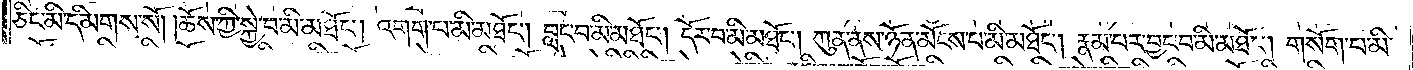ཅིང་མི་དམིགས་སོ། །ཆོས་ཀྱི་སྐྱེ་བ་མི་མཐོང༌། འགག་པ་མི་མཐོང༌། བླང་བ་མི་མཐོང༌། དོར་བ་མི་མཐོང༌། ཀུན་ནས་ཉོན་མོངས་པ་མི་མཐོང༌། རྣམ་པར་བྱང་བ་མི་མཐོང༌། གསོག་པ་མི་
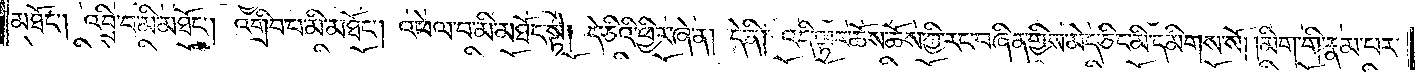མཐོང༌། འབྲི་བ་མི་མཐོང༌། འགྲིབ་པ་མི་མཐོང༌། འཕེལ་བ་མི་མཐོང་སྟེ། དེ་ཅིའི་ཕྱིར་ཞེ་ན། དེ་ནི། འདི་ལྟར་ཆོས་ཆོས་ཀྱི་རང་བཞིན་གྱིས་མེད་ཅིང་མི་དམིགས་སོ། །མིག་གི་རྣམ་པར་
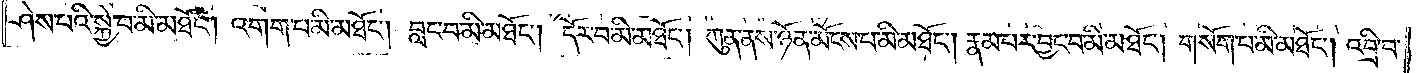ཤེས་པའི་སྐྱེ་བ་མི་མཐོང༌། འགག་པ་མི་མཐོང༌། བླང་བ་མི་མཐོང༌། དོར་བ་མི་མཐོང༌། ཀུན་ནས་ཉོན་མོངས་པ་མི་མཐོང༌། རྣམ་པར་བྱང་བ་མི་མཐོང༌། གསོག་པ་མི་མཐོང༌། འབྲི་བ་
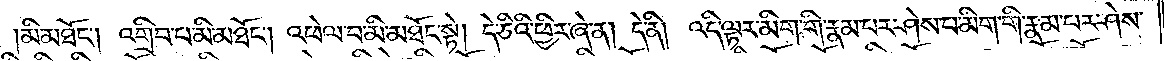མི་མཐོང༌། འགྲིབ་པ་མི་མཐོང༌། འཕེལ་བ་མི་མཐོང་སྟེ། དེ་ཅིའི་ཕྱིར་ཞེ་ན། དེ་ནི། འདི་ལྟར་མིག་གི་རྣམ་པར་ཤེས་པ་མིག་གི་རྣམ་པར་ཤེས་
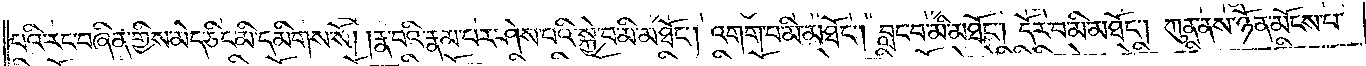པའི་རང་བཞིན་གྱིས་མེད་ཅིང་མི་དམིགས་སོ། །རྣ་བའི་རྣམ་པར་ཤེས་པའི་སྐྱེ་བ་མི་མཐོང༌། འགག་པ་མི་མཐོང༌། བླང་བ་མི་མཐོང༌། དོར་བ་མི་མཐོང༌། ཀུན་ནས་ཉོན་མོངས་པ་
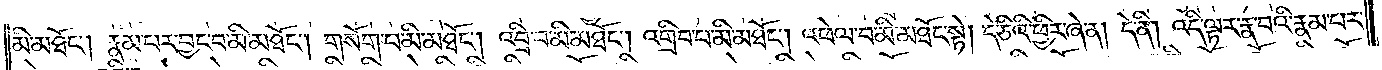མི་མཐོང༌། རྣམ་པར་བྱང་བ་མི་མཐོང༌། གསོག་པ་མི་མཐོང༌། འབྲི་བ་མི་མཐོང༌། འགྲིབ་པ་མི་མཐོང༌། འཕེལ་བ་མི་མཐོང་སྟེ། དེ་ཅིའི་ཕྱིར་ཞེ་ན། དེ་ནི། འདི་ལྟར་རྣ་བའི་རྣམ་པར་
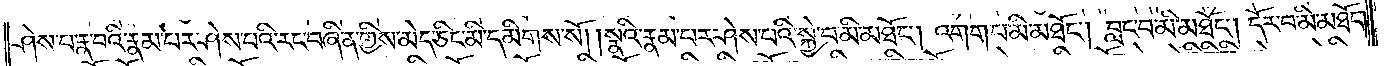ཤེས་པ་རྣ་བའི་རྣམ་པར་ཤེས་པའི་རང་བཞིན་གྱིས་མེད་ཅིང་མི་དམིགས་སོ། །སྣའི་རྣམ་པར་ཤེས་པའི་སྐྱེ་བ་མི་མཐོང༌། འགག་པ་མི་མཐོང༌། བླང་བ་མི་མཐོང༌། དོར་བ་མི་མཐོང༌།
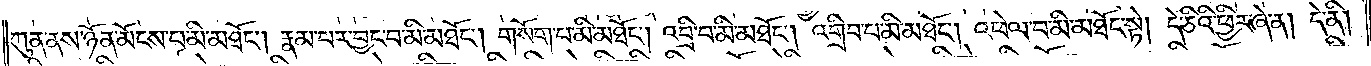ཀུན་ནས་ཉོན་མོངས་པ་མི་མཐོང༌། རྣམ་པར་བྱང་བ་མི་མཐོང༌། གསོག་པ་མི་མཐོང༌། འབྲི་བ་མི་མཐོང༌། འགྲིབ་པ་མི་མཐོང༌། འཕེལ་བ་མི་མཐོང་སྟེ། དེ་ཅིའི་ཕྱིར་ཞེ་ན། དེ་ནི།
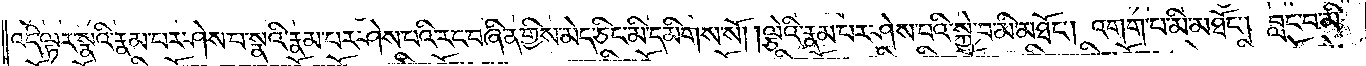འདི་ལྟར་སྣའི་རྣམ་པར་ཤེས་པ་སྣའི་རྣམ་པར་ཤེས་པའི་རང་བཞིན་གྱིས་མེད་ཅིང་མི་དམིགས་སོ། །ལྕེའི་རྣམ་པར་ཤེས་པའི་སྐྱེ་བ་མི་མཐོང༌། འགག་པ་མི་མཐོང༌། བླང་བ་མི་
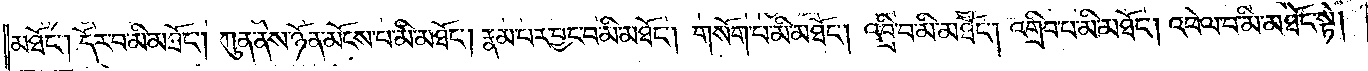མཐོང༌། དོར་བ་མི་མཐོང༌། ཀུན་ནས་ཉོན་མོངས་པ་མི་མཐོང༌། རྣམ་པར་བྱང་བ་མི་མཐོང༌། གསོག་པ་མི་མཐོང༌། འབྲི་བ་མི་མཐོང༌། འགྲིབ་པ་མི་མཐོང༌། འཕེལ་བ་མི་མཐོང་སྟེ།
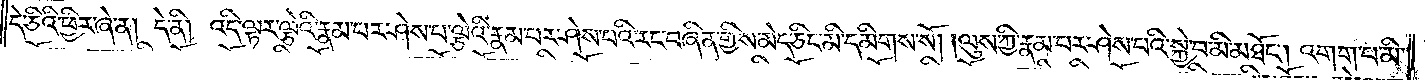དེ་ཅིའི་ཕྱིར་ཞེ་ན། དེ་ནི། འདི་ལྟར་ལྕེའི་རྣམ་པར་ཤེས་པ་ལྕེའི་རྣམ་པར་ཤེས་པའི་རང་བཞིན་གྱིས་མེད་ཅིང་མི་དམིགས་སོ། །ལུས་ཀྱི་རྣམ་པར་ཤེས་པའི་སྐྱེ་བ་མི་མཐོང༌། འགག་པ་མི་
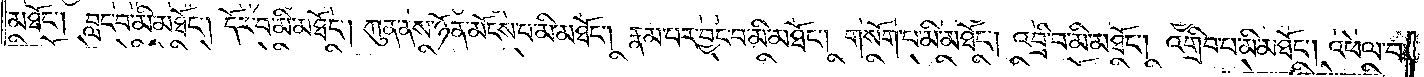མཐོང༌། བླང་བ་མི་མཐོང༌། དོར་བ་མི་མཐོང༌། ཀུན་ནས་ཉོན་མོངས་པ་མི་མཐོང༌། རྣམ་པར་བྱང་བ་མི་མཐོང༌། གསོག་པ་མི་མཐོང༌། འབྲི་བ་མི་མཐོང༌། འགྲིབ་པ་མི་མཐོང༌། འཕེལ་བ་
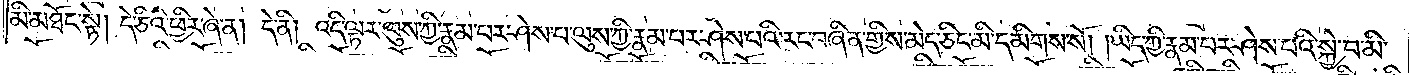མི་མཐོང་སྟེ། དེ་ཅིའི་ཕྱིར་ཞེ་ན། དེ་ནི། འདི་ལྟར་ལུས་ཀྱི་རྣམ་པར་ཤེས་པ་ལུས་ཀྱི་རྣམ་པར་ཤེས་པའི་རང་བཞིན་གྱིས་མེད་ཅིང་མི་དམིགས་སོ། །ཡིད་ཀྱི་རྣམ་པར་ཤེས་པའི་སྐྱེ་བ་མི་
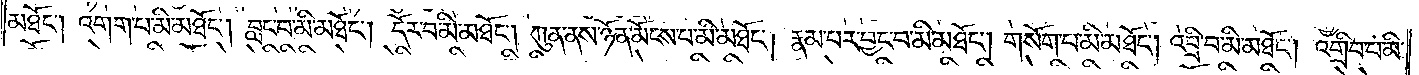མཐོང༌། འགག་པ་མི་མཐོང༌། བླང་བ་མི་མཐོང༌། དོར་བ་མི་མཐོང༌། ཀུན་ནས་ཉོན་མོངས་པ་མི་མཐོང༌། རྣམ་པར་བྱང་བ་མི་མཐོང༌། གསོག་པ་མི་མཐོང༌། འབྲི་བ་མི་མཐོང༌། འགྲིབ་པ་མི་
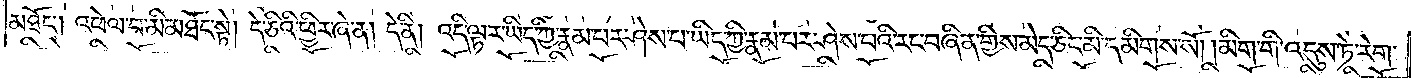མཐོང༌། འཕེལ་བ་མི་མཐོང་སྟེ། དེ་ཅིའི་ཕྱིར་ཞེ་ན། དེ་ནི། འདི་ལྟར་ཡིད་ཀྱི་རྣམ་པར་ཤེས་པ་ཡིད་ཀྱི་རྣམ་པར་ཤེས་པའི་རང་བཞིན་གྱིས་མེད་ཅིང་མི་དམིགས་སོ། །མིག་གི་འདུས་ཏེ་རེག་
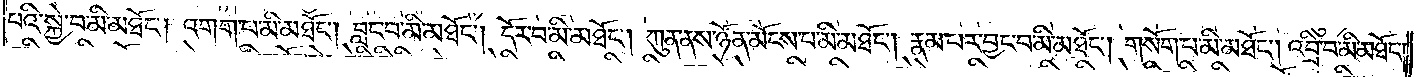པའི་སྐྱེ་བ་མི་མཐོང༌། འགག་པ་མི་མཐོང༌། བླང་བ་མི་མཐོང༌། དོར་བ་མི་མཐོང༌། ཀུན་ནས་ཉོན་མོངས་པ་མི་མཐོང༌། རྣམ་པར་བྱང་བ་མི་མཐོང༌། གསོག་པ་མི་མཐོང༌། འབྲི་བ་མི་མཐོང༌།
